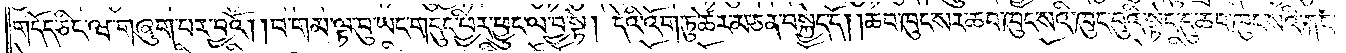གདོད་ཅིང་ཝ་གཞུག་པར་བྱའོ། །བ་གམ་ལྟ་བུ་ཡང་གདུང་ཕྱིར་ཕྱུང་ལ་བྱ་སྟེ། དེའི་འོག་ཏུ་ཚེར་མ་ཅན་བསྐྱེད་དོ། །ཆབ་ཁུང་སར་ཆབ་ཁུང་སའི་ཁུང་བུའི་སྟེང་དུ་ཆབ་ཁུང་སའི་རྐང་
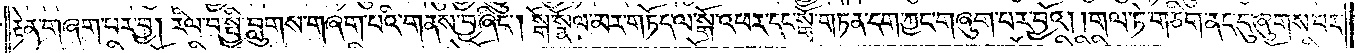རྟེན་གཞག་པར་བྱ། རིལ་པ་སྤྱི་བླུགས་གཞག་པའི་གནས་བྱ་ཞིང༌། སྒོ་སྣོལ་མར་གཏོད་ལ་སྒོ་འཕར་དང་སྒོ་གཏན་དག་ཀྱང་གཞུག་པར་བྱའོ། །གལ་ཏེ་གཅིག་ནང་དུ་ཞུགས་པར་
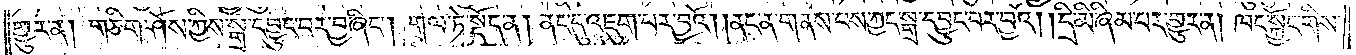གྱུར་ན། གཅིག་ཤོས་ཀྱིས་སྒྲ་དབྱུང་བར་བྱ་ཞིང༌། གལ་ཏེ་སྡོད་ན། ནང་དུ་འཇུག་པར་བྱའོ། །ནང་ན་གནས་པས་ཀྱང་སྒྲ་དབྱུང་བར་བྱའོ། །དྲི་མི་ཞིམ་པར་གྱུར་ན། ཁང་སྐྱོང་གིས་
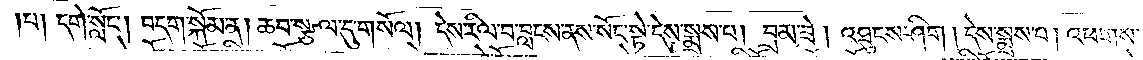པ། དགེ་སློང༌། བདག་སྐོམ་ན། ཆབ་སྩལ་དུ་གསོལ། དེས་རིལ་བ་བླངས་ནས་སོང་སྟེ་དེས་སྨྲས་པ། བྲམ་ཟེ ། འཐུངས་ཤིག ། དེས་སྨྲས་པ ། འཕགས་
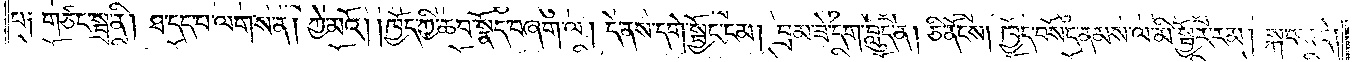པ༑ གཙང་སྦྲ་ནི། ཐ་དད་པ་ལགས་ན། ཀྱེ་མའོ། །ཁྱོད་ཀྱི་ཆབ་སྣོད་བཞག་ལ། དེ་ནས་དགེ་སྦྱོང་ངམ། བྲམ་ཟེ་དག་བླུད་ན། ཅི་ནོངས། ཁྱོད་བསོད་ནམས་ལ་མི་སྦྱོར་རམ། སྐབས་དེ།
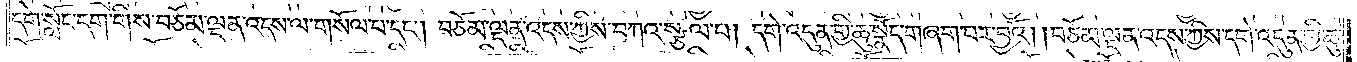དགེ་སློང་དག་གིས་བཅོམ་ལྡན་འདས་ལ་གསོལ་པ་དང༌། བཅོམ་ལྡན་འདས་ཀྱིས་བཀའ་སྩལ་པ། དགེ་འདུན་གྱི་ཆུ་སྣོད་གཞག་པར་བྱའོ། །བཅོམ་ལྡན་འདས་ཀྱིས་དགེ་འདུན་གྱི་ཆུ་
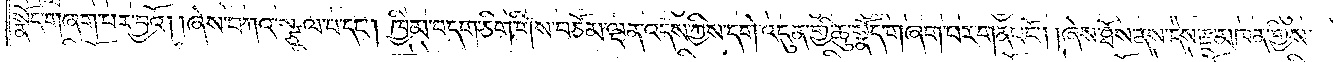སྣོད་གཞག་པར་བྱའོ། །ཞེས་བཀའ་སྩལ་པ་དང༌། ཁྱིམ་བདག་ཅིག་གིས་བཅོམ་ལྡན་འདས་ཀྱིས་དགེ་འདུན་གྱི་ཆུ་སྣོད་གཞག་པར་གནང་ངོ༌། །ཞེས་ཐོས་ནས་དེས་རྫ་མཁན་གྱིས་
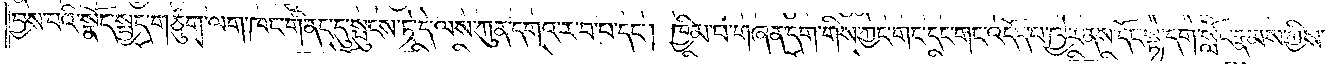བྱས་པའི་སྣོད་སྤྱད་གཙུག་ལག་ཁང་གི་ནང་དུ་སྤུངས་ཏེ་དེ་ལས་ཀུན་དགའ་ར་བ་པ་དང༌། ཁྱིམ་པ་གཞན་དག་གིས་ཀྱང་གང་དང་གང་འདོད་པ་ཁྱེར་ནས་དོང་སྟེ་དགེ་སློང་རྣམས་ཀྱིས་
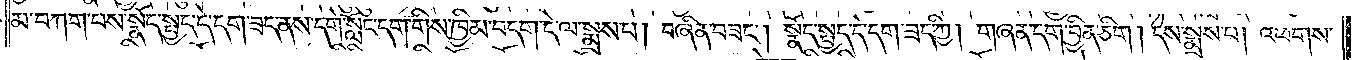མ་བཀག་པས་སྣོད་སྤྱད་དེ་དག་ཟད་ནས་དགེ་སློང་དག་གིས་ཁྱིམ་བདག་དེ་ལ་སྨྲས་པ། བཞིན་བཟང༌། སྣོད་སྤྱད་དེ་དག་ཟད་ཀྱི། གཞན་དག་བྱིན་ཅིག །དེས་སྨྲས་པ། འཕགས་
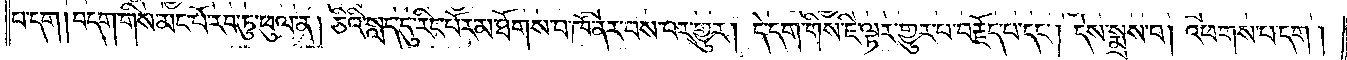པ་དག །བདག་གིས་མང་པོ་རབ་ཏུ་ཕུལ་ན། ཅིའི་སླད་དུ་རིང་པོར་མ་ཐོགས་པ་ཁོ་ནར་བས་པར་གྱུར། དེ་དག་གིས་ཇི་ལྟར་གྱུར་པ་བརྗོད་པ་དང༌། དེས་སྨྲས་པ། འཕགས་པ་དག །
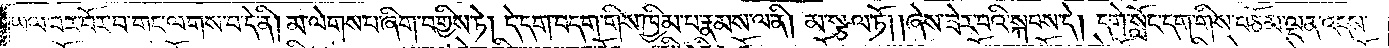ཡལ་བར་བོར་བ་གང་ལགས་པ་དེ་ནི། མ་ལེགས་པ་ཞིག་བགྱིས་ཏེ། དེ་དག་བདག་གིས་ཁྱིམ་པ་རྣམས་ལ་ནི། མ་སྩལ་ཏོ། །ཞེས་ཟེར་བའི་སྐབས་དེ། དགེ་སློང་དག་གིས་བཅོམ་ལྡན་འདས་
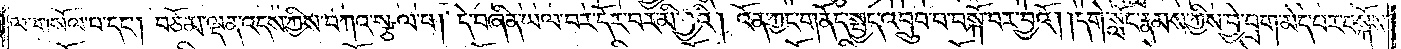ལ་གསོལ་པ་དང༌། བཅོམ་ལྡན་འདས་ཀྱིས་བཀའ་སྩལ་པ། དེ་བཞིན་ཡལ་བར་དོར་བར་མི་བྱའི། འོན་ཀྱང་གནོད་སྤྱད་འབྲུབ་པ་བསྐོ་བར་བྱའོ། །དགེ་སློང་རྣམས་ཀྱིས་བྱེ་བྲག་མེད་པར་བསྐོས་
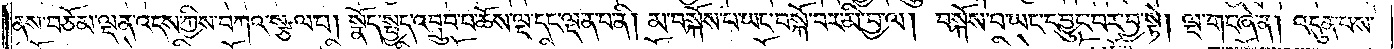ནས་བཅོམ་ལྡན་འདས་ཀྱིས་བཀའ་སྩལ་པ། སྣོད་སྤྱད་འབྲུབ་པ་ཆོས་ལྔ་དང་ལྡན་པ་ནི། མ་བསྐོས་པ་ཡང་བསྐོ་བར་མི་བྱ་ལ། བསྐོས་པ་ཡང་དབྱུང་བར་བྱ་སྟེ། ལྔ་གང་ཞེ་ན། འདུན་པས་
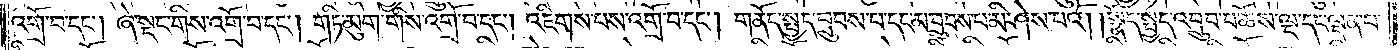འགྲོ་བ་དང༌། ཞེ་སྡང་གིས་འགྲོ་བ་དང༌། གཏི་མུག་གིས་འགྲོ་བ་དང༌། འཇིགས་པས་འགྲོ་བ་དང༌། གནོད་སྤྱད་བྲུབས་པ་དང་མ་བྲུབས་པ་མི་ཤེས་པའོ། །སྣོད་སྤྱད་འབྲུབ་པ་ཆོས་ལྔ་དང་ལྡན་པ་
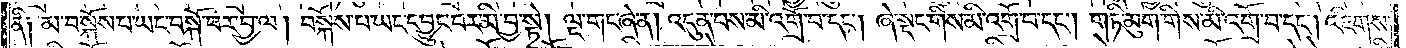ནི། མ་བསྐོས་པ་ཡང་བསྐོ་བར་བྱ་ལ། བསྐོས་པ་ཡང་དབྱུང་བར་མི་བྱ་སྟེ། ལྔ་གང་ཞེ་ན། འདུན་པས་མི་འགྲོ་བ་དང༌། ཞེ་སྡང་གིས་མི་འགྲོ་བ་དང༌། གཏི་མུག་གིས་མི་འགྲོ་བ་དང༌། འཇིགས་
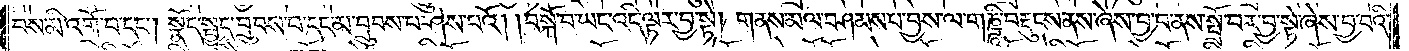བས་མི་འགྲོ་བ་དང༌། སྣོད་སྤྱད་བྲུབས་པ་དང་མ་བྲུབས་པ་ཤེས་པའོ། །བསྐོ་བ་ཡང་འདི་ལྟར་བྱ་སྟེ། གནས་མལ་བཤམས་པ་བྱས་ལ་གཎྜཱི་བརྡུངས་ནས་ཞེས་བྱ་བ་ནས་སྤྲོ་བར་བྱ་སྟེ་ཞེས་བྱ་བའི་
